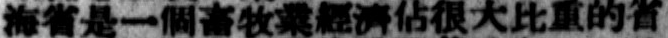海省是一個畜牧業經濟佔很大比重的省
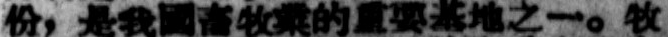份，是我國畜牧業的重要基地之一。牧
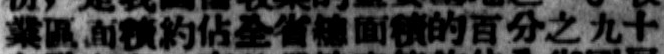業區面積約佔全省總面積的百分之九十
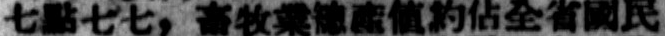七點七七，畜牧業總產值約佔全省國民
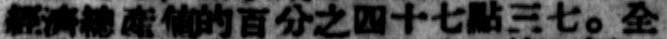經濟總產值的百分之四十七點三七。全
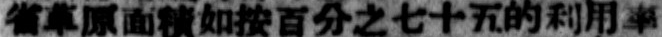省草原面積如按百分之七十五的利用率
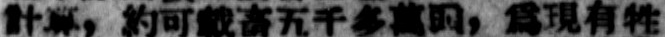計算，約可載畜五千多萬頭，爲現有牲
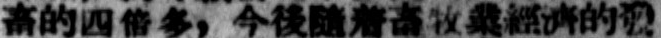畜的四倍多，今後隨着畜牧業經濟的發
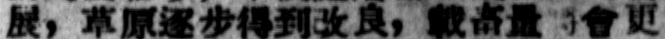展，草原逐步得到改良，載畜量將會更
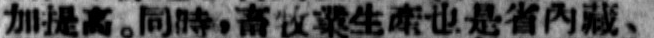加提高。同時，畜牧業生產也是省內藏、
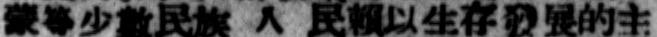蒙等少數民族 人 民賴以生存發展的主
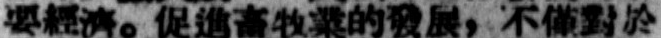要經濟。促進畜牧業的發展，不僅對於
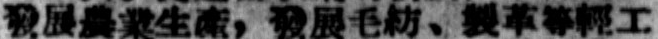發展農業生產，發展毛紡、製革等輕工
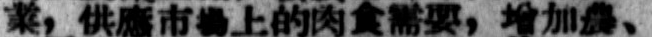業，供應市場上的肉食需要，增加農、
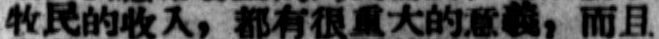牧民的收入，都有很重大的意義，而且
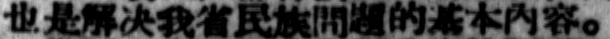也是解決我省民族問題的基本內容。
